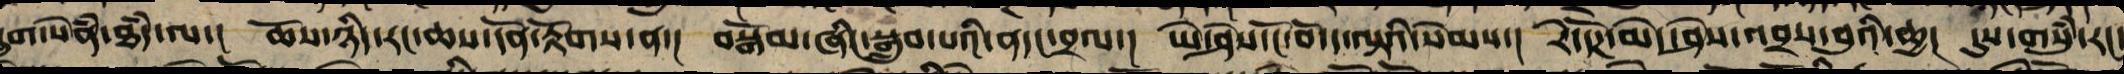དྲུག་སེཾན་ཐཾད་ལ་། ཆོས་ཉིད་རང་ཆས་དོན་རྟོགས་ན་། བསྒོམ་ཞིང་བསྒྲུབ་པའི་ནདང་བྲལ་། ཡེ་ཤེས་ངོ་བོ་ད་ལྟའི་སེམས་། རེ་དོཌ་མེད་ཤེས་འབྲས་བུའི་ཆྱ། དུས་གསུཾ་རང་
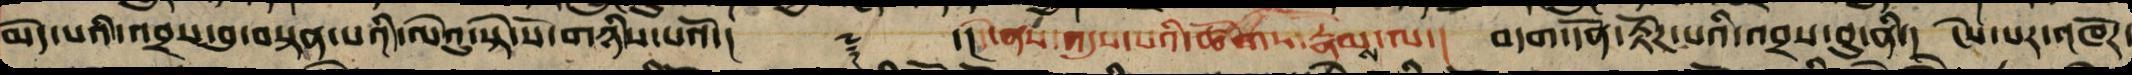མེད་པའི་འབྲས་བུ་བསྟན་པའི་ལེའུ་སྟེ་སོ་གཉིས་པའོ་།། ༈ ་།།དེ་ནས་འདུས་པའི་ཚོགས་རྣམས་ལ་། བདག་དོན་རྟོཌ་པའི་འབྲས་བུ་ནི་། ངེས་པར་འཁོར་
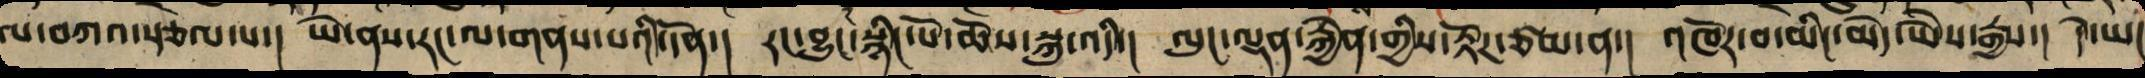ལ་བཀའ་སྩལ་པ་། ཡེ་ནས་རང་ལ་གནས་པའི་དོན་། རང་བྱུང་སྙིང་པོ་ཆོས་སྐུ་འདི་། ལུང་ལྡན་རྐྱེན་གྱིས་རྟོཌ་ཙམ་ན་། འཁོར་བའི་མིང་མེད་ཡཻས་རྒྱས་། དེ་ཡང
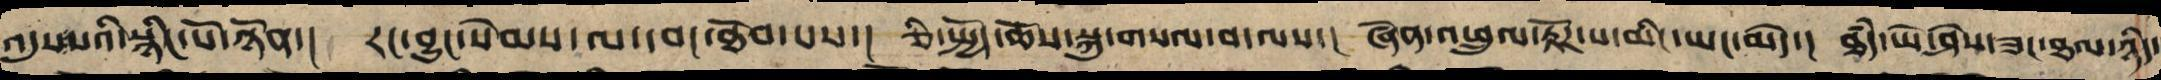འདུས་པའི་སྙིང་པོ་ཉོན་། རང་བྱུང་སེམས་ལ་དབང་ཐོབ་པས་། ཅི་སྤྱོད་ཆོས་སྐུར་གསལ་བ་ལས་། ཞེན་འཁྲུལ་རྟོཌ་པ་མིང་ཡང་མེད་། ཐཾད་ཡེ་ཤེས་ཟང་ཐལ་ཉིད་།
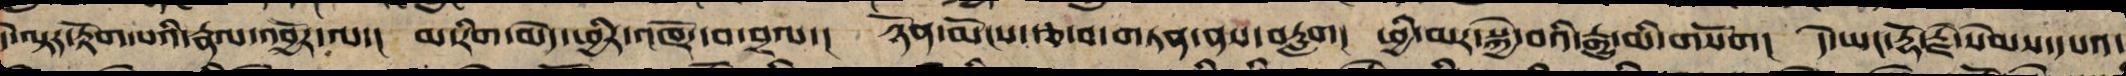དེ་ལྟར་རྟོགས་པའི་རྣལ་འབྱོར་ལ་། མ་རིག་མེད་ཕྱིར་འཁོར་བ་བྲལ་། ཉོན་མོངས་རྩ་བ་གཏན་ནས་བརླག། ཕྱི་མར་སྐྱེ་བའི་རྒྱུ་མི་གསོག། དེ་ཡང་རྡོ་རྗེ་སེམས་དཔའ་
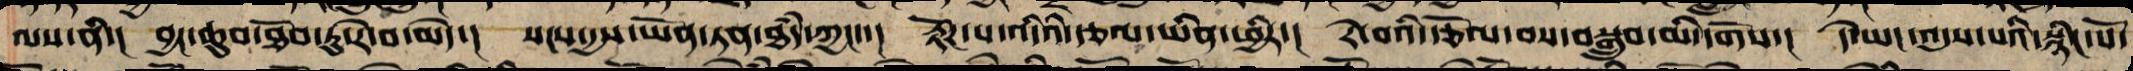ལས་ནི་། བྱང་ཆུབ་ཐོབ་ཏུ་རེ་བ་མེད་། སངས་རྒྱས་ཡོན་ཏན་ཐཾད་ཀྱང་། རྟོད་པ་འདིའི་རྩལ་ཡིན་ཕྱིར། རེ་བའི་རྩོལ་བས་བསྒྲུབ་མི་དགོས་། དེ་ཡང་འདུས་པའི་སྙིང་པོ་
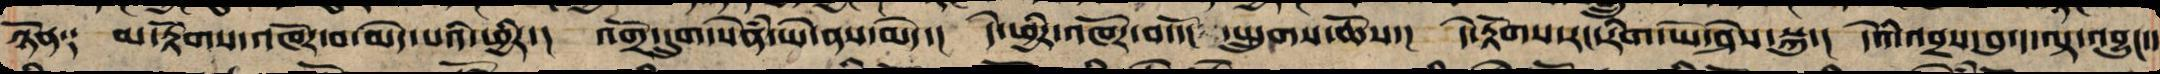ཉོན༑ མ་རྟོགས་འཁོར་བ་མེད་པའི་ཕྱིར་། འགྲོ་དྲུག་སེཾན་ཡེ་ནས་མེད་། དེ་ཕྱིར་འཁོར་བ་དོང་སྤྲུགས་ཆོས་། དེ་རྟོགས་རང་རིག་ཡེ་ཤེས་སྐུ་། དེའི་འབྲས་བུ་ད་ལྟ་འབྱུང་།
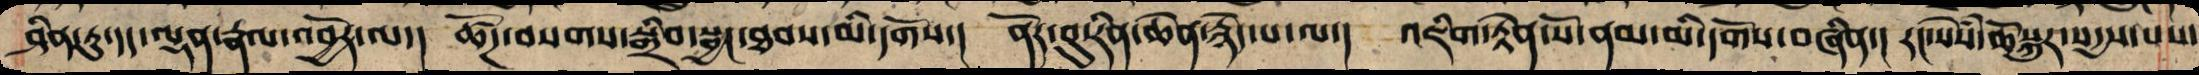ཤིན་ཏུ་དད་ལྡན་རྣལ་འབྱོར་ལ་། ཚོཌ་བསགས་སྒྲིབ་སྦྱངས་ཐབས་མི་དགོས་། ནོར་བུ་རིན་ཆེན་རྙེད་པ་ལ་། འཇིག་རྟེན་སོ་ནམ་མི་དགོས་བཞིན་། རང་སེཾས་ཆོསྐུར་སདྱས་པས་
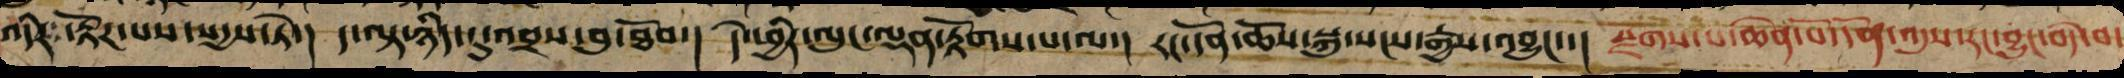འདིར་རྟོཌ་པས་སདྱས་ཏེ་། ད་ལྟ་ཉིད་དུ་འབྲས་བུ་ཐོབ་། དེ་ཕྱིར་ལུང་ལྡན་རྟོགས་པ་ལ་། རང་དོན་ཆོས་སྐུ་སངས་རྒྱས་འབྱུང་་། སྫོགས་པ་ཆེན་པོ་དོན་འདུས་རང་བྱུང་བདེ་བ་
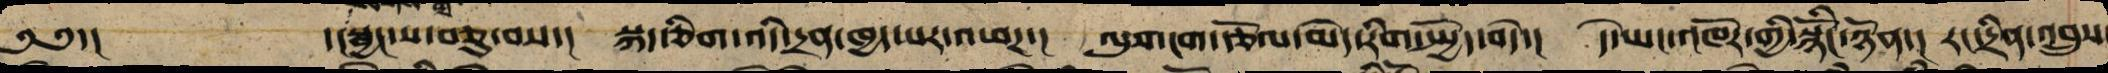༄༅་། ་།སྦྱང་ས་བཅུ་པས་། སྐད་ཅིག་འདི་དྲན་ཁྱད་པར་འཕཌ་། ལུས་ངག་རྩོལ་མེད་རིག་སྤྱོད་བདེ་། དེ་ཡང་འཁོར་གྱི་སྙིངོ་ཉོན་། རང་དྲིན་འབྲུས
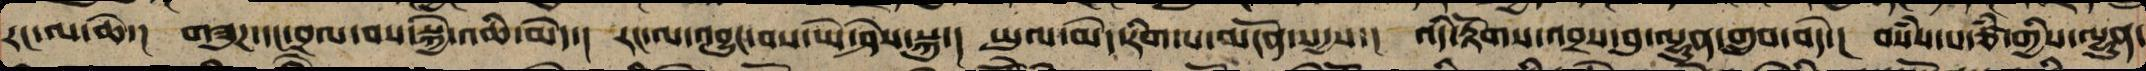རང་ལ་ཆེ་། གཟུཌ་དང་བྲལ་བས་སྐྱེ་འཆི་མེད་། རང་ལ་འབྱུང་བའི་ཡེ་ཤེས་སྐུ་། ཡུལ་མེད་རིག་པ་མངོན་སདྱས་། འདི་རྟོགས་འབྲས་བུ་ལྷུན་གྲུབ་བདེ་། བསཾས་པ་ཙཾ་གྱིས་ལྷུན་
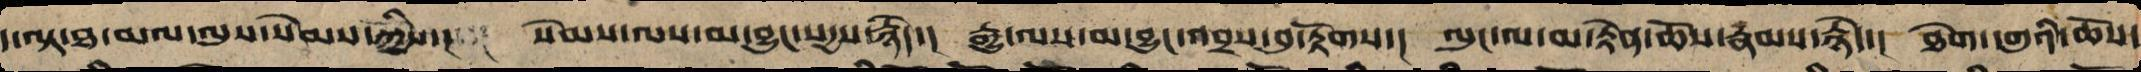ད་ལྟ་ཐ་མལ་ལུས་སེམས་ཀྱིས་། སེམས་ལས་མ་བྱུང་སདྱས་རྙེད་། རྒྱུ་ལས་མ་བྱུང་འབྲས་བུ་རྟོགས་། ལུང་ལ་མ་བརྟེན་ཆོས་རྣཾས་རྙེད་། ཐེག་དགུའི་ཆོས་
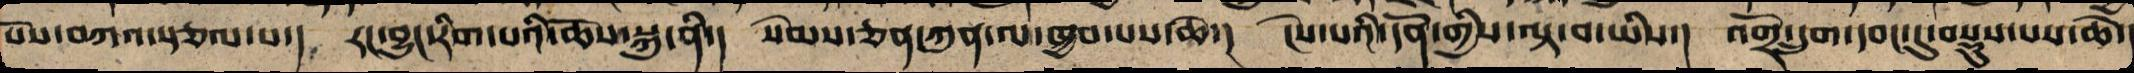པོས་བཀའ་སྩལ་པ་། རང་བྱུང་རིག་པ་ཆོས་སྐུ་ནི་། སེམས་ཅན་ཀུན་ལ་ཁྱབ་པས་ཆེ་། ངེས་པའི་དོན་གྱི་ལྟ་བ་ཡིས་། འགྲོ་དྲུག་དབང་དུ་བསྡུས་པས་ཆེ་།
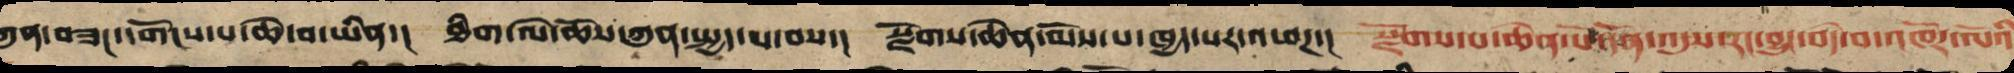ཀུན་བཟང་དགོངས་པ་ཆེ་བ་ཡིན་། ཐིག་གཞན་ཆོས་ཀུན་སྤྱད་པ་བས་། སྫོགས་ཆེན་མོས་པ་ཁྱད་པར་འཕཌ་། སྫོགས་པ་ཆེན་པོ་དོན་འདུས་རང་བྱུང་བདེ་བའི་འཁོར་ལོའི
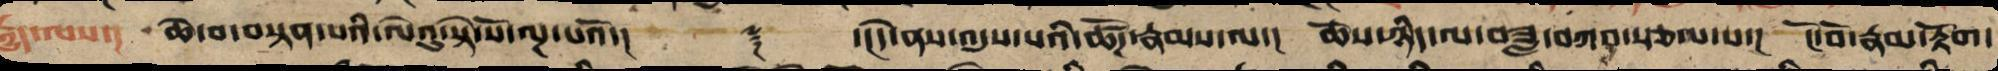རྒྱུད་ལས་། ཆེ་བ་བསྟན་པའི་ལེའུ་སྟེ་སོ་ལྔ་པའོ་།། ༈ ་།།དེ་ནས་འདུས་པའི་ཚོཌ་རྣམས་ལ་། ཆོས་ཉིད་ལ་བཟླ་བཀའ་སྩལ་པ་། ངོ་བོ་རྣམ་རྟོག་
